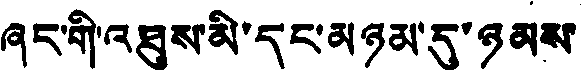ཞང་གི་འཐུས་མི་དང་མཉམ་དུ་ཉམས
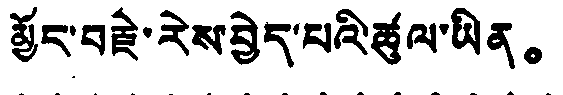མྱོང་བརྗེ་རེས་བྱེད་པའི་ཚུལ་ཡིན。
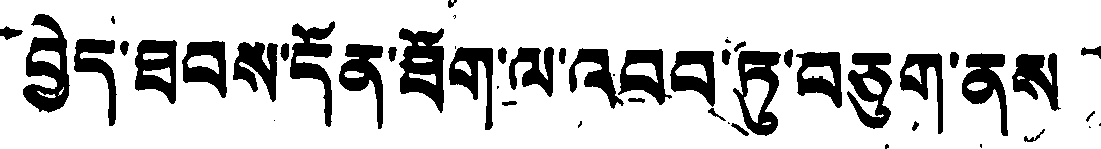བྱེད་ཐབས་དོན་ཟོག་ལ་འབྲབ་ཏུ་བཅུག་ནས
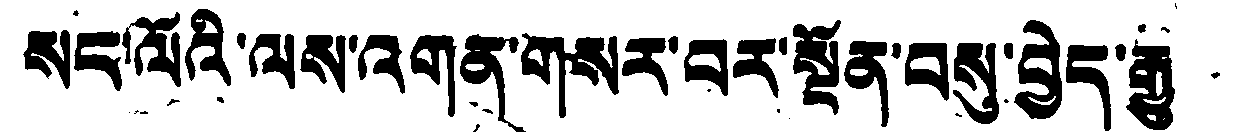སང་ལོའི་ལས་འགན་གསར་བར་སྔོན་བསུ་བྱེད་རྒྱུ
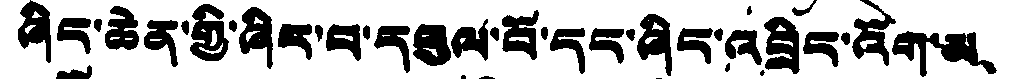ཞིང་ཆེན་གྱི་ཞིར་བ་དབུལ་བོ་དང་ཞིང་འབྲིད་འོག་མ、
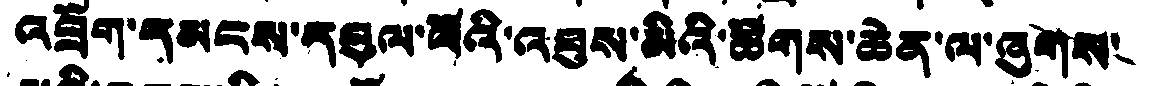འབྲོག་དམངས་དབུལ་ལོའི་འཐུས་མིའི་ཚོགས་ཆེན་ལ་ཞུགས་
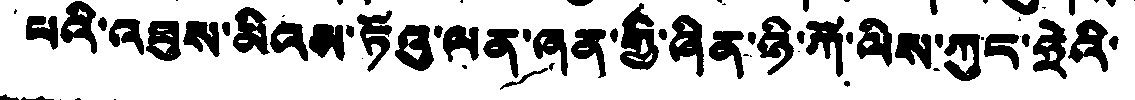པའི་འཐུས་མིའམ་ཏོའུ་ལན་ཞན་གྱི་ཞིན་ཉི་ཀོ་ལིས་ཀུང་ཧྲེའི་
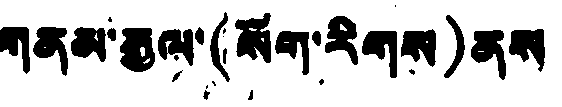གནམ་རྒྱལ་(སོག་རིགས) ནས
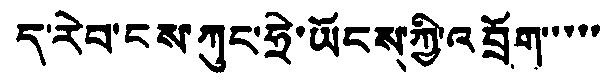ད་རེབ་ངས་ཀུང་ཧྲེ་ཡོངས་ཀྱི་འབྲོག་་་་་
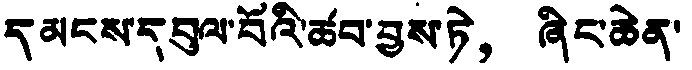དམངས་དབུལ་བོའི་ཚབ་བྱས་ཏེ， ཞིང་ཆེན་
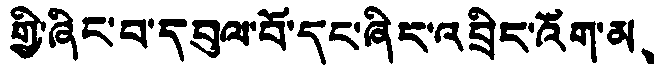གྱི་ཞིང་བ་དབུལ་བོ་དང་ཞིང་འབྲིང་འོག་མ、
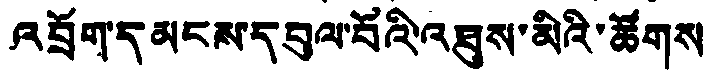འབྲོག་དམངས་དབུལ་བོའི་འཐུས་མིའི་ཚོགས
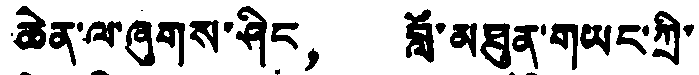ཆེན་ལ་ཞུགས་ཤིང， བློ་མཐུན་གཡང་ཀྲི་
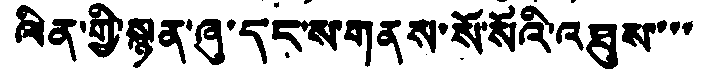ལིན་གྱི་སྙན་ཞུ་དང་ས་གནས་སོ་སོའི་འཐུས་་་
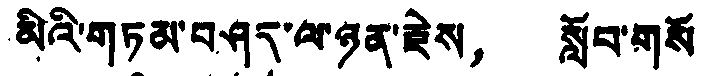མིའི་གཏམ་བཤད་ལ་ཉན་རྗེས， སློབ་གསོ་
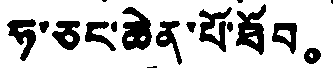ཧ་ཅང་ཆེན་པོ་ཐོབ。
